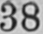38
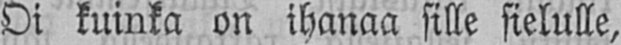Oi kuinka on ihanaa sille sielulle,
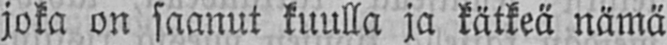joka on saanut kuulla ja kätkeä nämä
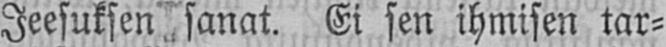Jeesuksen sanat. Ei sen ihmisen tar-
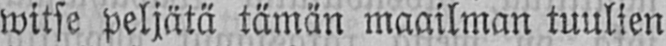witse peljätä tämän maailman tuulien
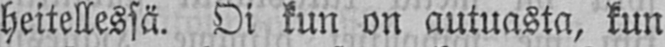heitellessä. Oi kun on autuasta, kun
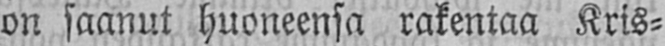on saanut huoneensa rakentaa Kris-
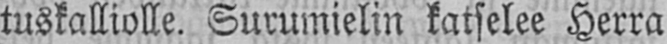tuskalliolle. Surumielin katselee Herra
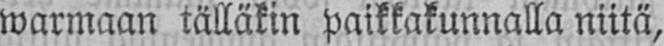warmaan tälläkin paikkakunnalla niitä,
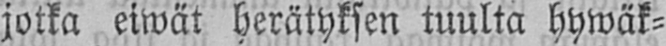jotka eiwät herätyksen tuulta hywäk-
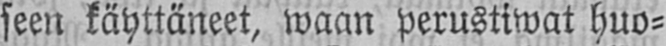seen käyttäneet, waan perustiwat huo-
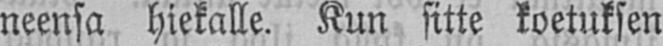neensa hiekalle. Kun sitte koetuksen
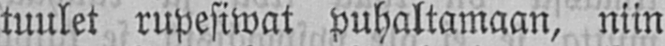tuulet rupesiwat puhaltamaan, niin
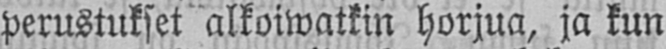perustukset alkoiwatkin horjua, ja kun
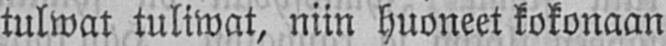tulwat tuliwat, niin huoneet kokonaan
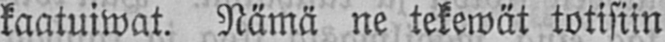kaatuiwat. Nämä ne tekewät totisiin
